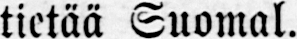tietää Suomal.
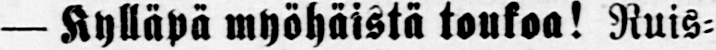— Kylläpä myöhäistä toukoa! Ruis-
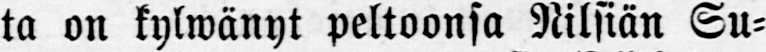ta on kylwänyt peltoonsa Nilsiän Su-
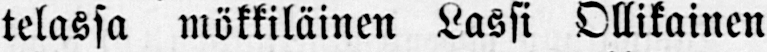telassa mökkiläinen Lassi Ollikainen
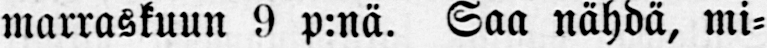marraskuun 9 p:nä. Saa nähdä, mi-
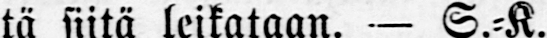tä siitä leikataan. — S.-K.
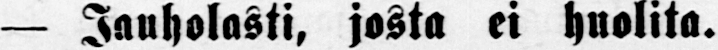— Jauholasti, josta ei huolita.
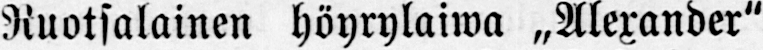Ruotsalainen höyrylaiwa „Alexander"
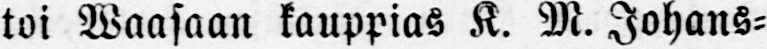tui Waasaan kauppias K. M. Johans-
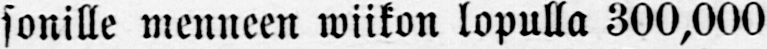sonille menneen wiikon lopulla 300,000
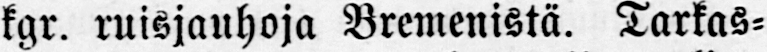kgr. ruisjauhoja Bremenistä. Tarkas-
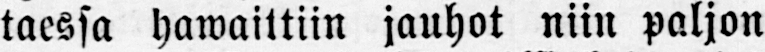taessa hawaittiin jauhot niin paljon
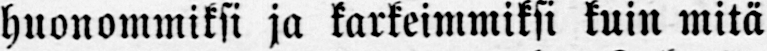huonommiksi ja karkeimmiksi kuin mitä
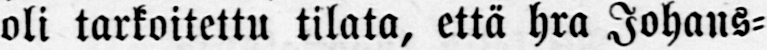oli tarkoitettu tilata, että hra Johans-
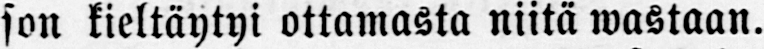son kieltäytyi ottamasta niitä wastaan.
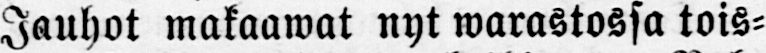Jauhot makaawat nyt warastossa tois-
